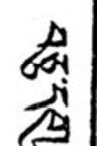བཅུ་དགུ་
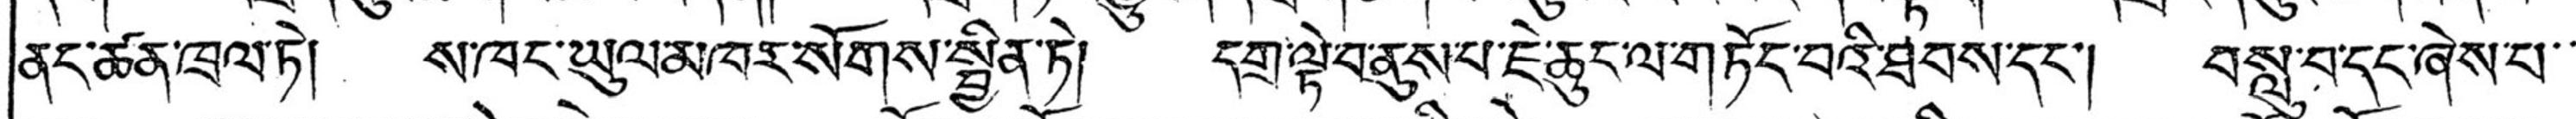ནང་ཚན་ཁྲལ་ཏེ། ས་ཁང་ཡུལ་མཁར་སོགས་སྦྱིན་ཏེ། དགྲ་ལྟེ་བ་ནུས་པ་ཇེ་ཆུང་ལ་གཏོང་བའི་ཐབས་དང་། བསླུ་བ་དང་ཞེས་པ་་
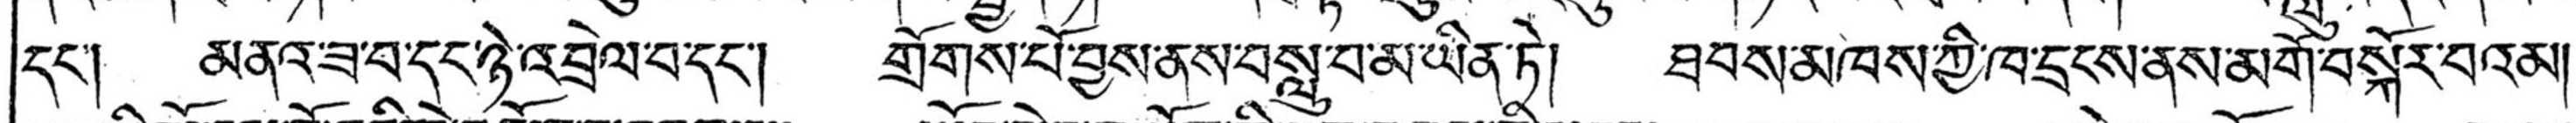དང་། མནའ་ཟ་བ་དང་ཉེ་འབྲེལ་བ་དང་། གྲོགས་པོ་བྱས་ནས་བསླུ་བ་མ་ཡིན་ཏེ། ཐབས་མཁས་ཀྱི་ཁ་དྲངས་ནས་མགོ་བསྐོར་བའམ།
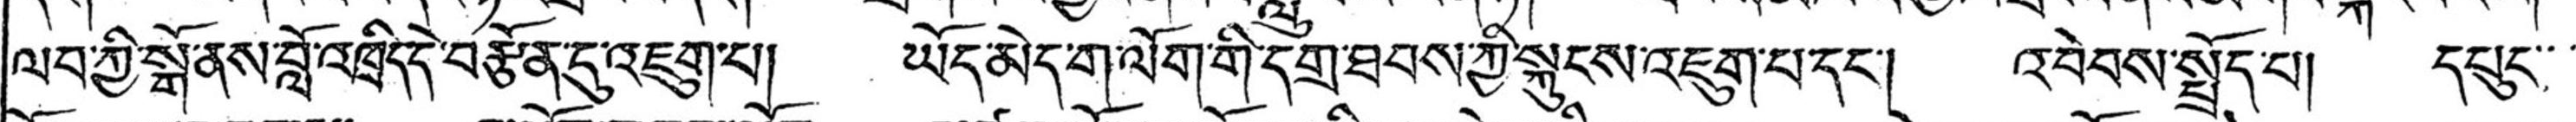ལབ་ཀྱི་སྒོ་ནས་བློ་འཁྲིད་དེ་བརྩོན་དུ་འཇུག་པ། ཡོད་མེད་ག་ལོག་གི་དགྲ་ཐབས་ཀྱི་སྐུངས་འཇུག་པ་དང་། འབེབས་སྤྲོད་པ། དཔུང་་་
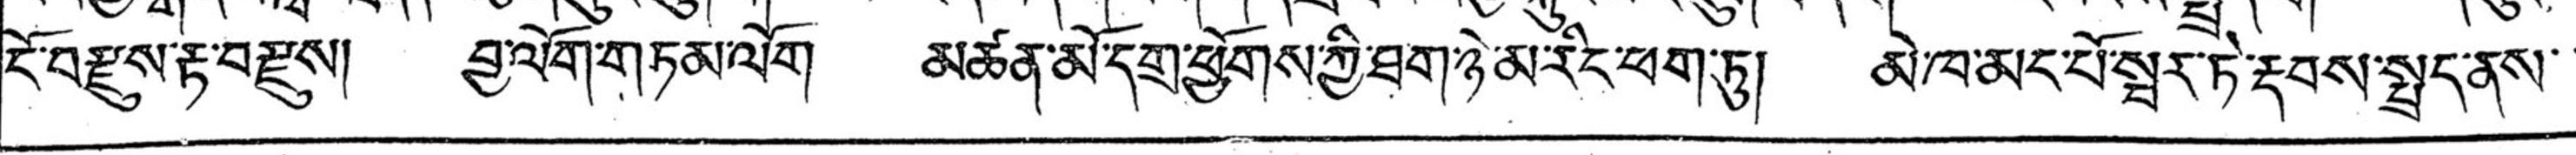ངོ་བརྫུས་རྟ་བརྫུས། བྱ་ལོག་གཏམ་ལོག མཚན་མོ་དགྲ་ཕྱོགས་ཀྱི་ཐག་ཉེ་མ་རིང་ཕག་ཏུ། མེ་ཁ་མང་པོ་སྦར་ཏེ་རྡབས་སྤྲད་ནས་་
